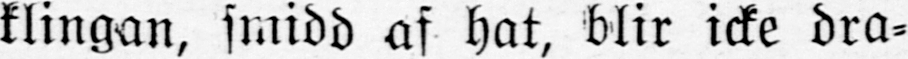klingan, smidd af hat, blir icke dra-
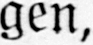gen,
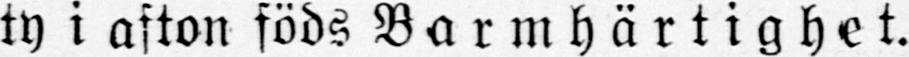ty i afton föds Barmhärtighet.
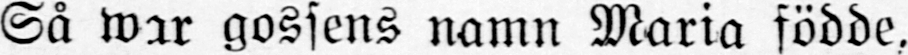Så war gossens namn Maria födde,
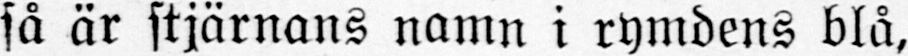så är stjärnans namn i rymdens blå,
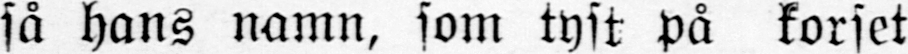så hans namn, som tyst på korset
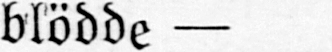blödde -
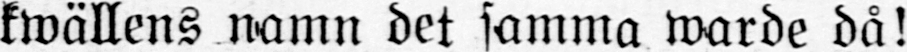kwällens namn det samma warde då!
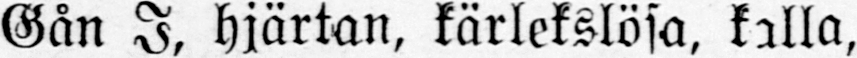Gån I, hjärtan, kärlekslösa, kalla,
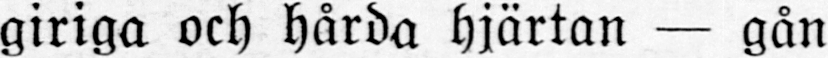giriga och hårda hjärtan — gån
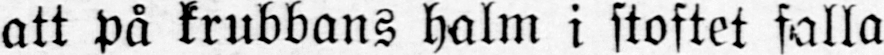att på krubbans halm i stoftet falla
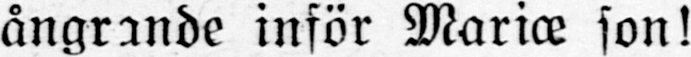ångrande inför Mariæ son!
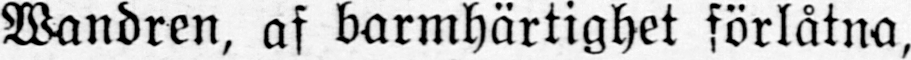Wandren, af barmhärtighet förlåtna,
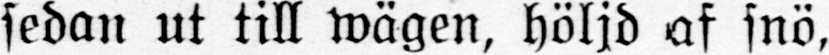sedan ut till wägen, höljd af snö,
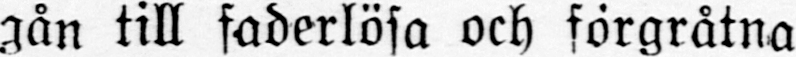gån till faderlösa och förgråtna
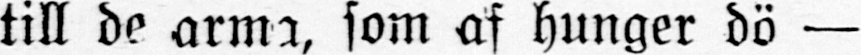till de arma, som af hunger dö —
